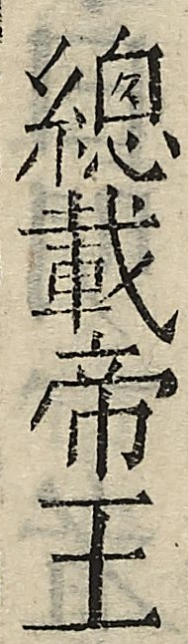總載帝王
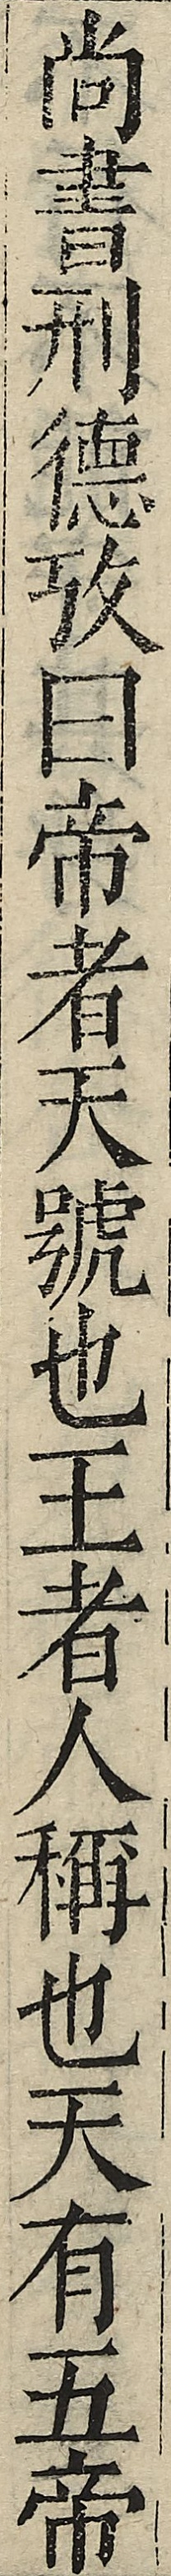尚書刑德放曰帝者天號也王者人稱也天有五帝
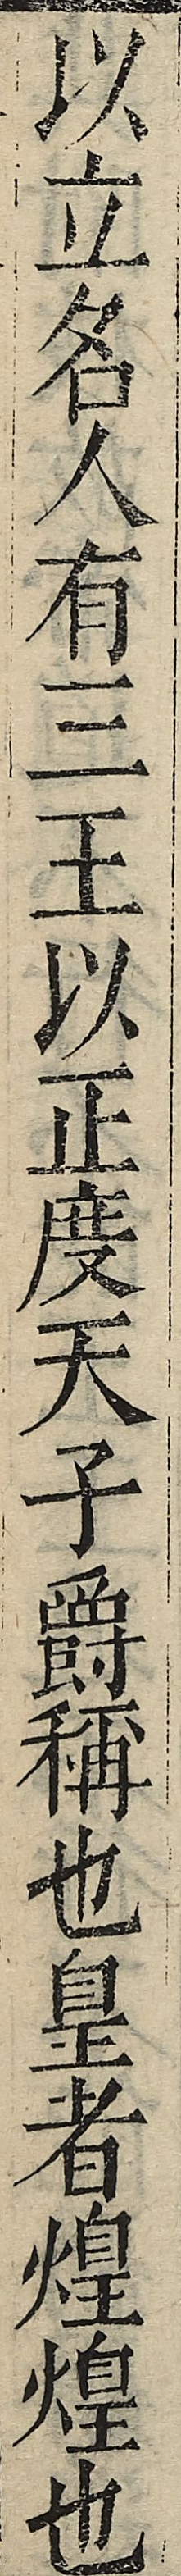以立名人有三王以正度天子爵稱也皇者煌煌也
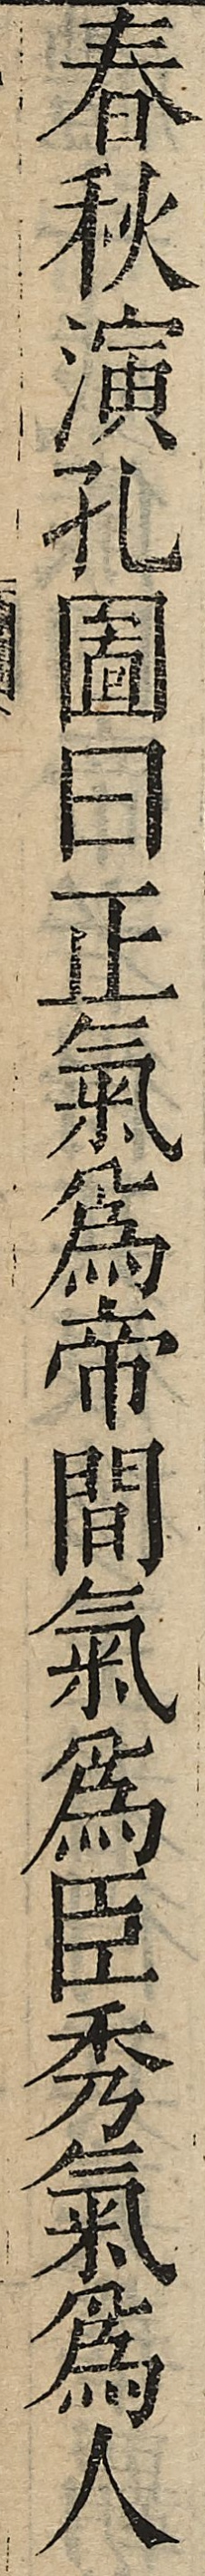春秋演孔圖曰正氣為帝閒氣為臣秀氣為人
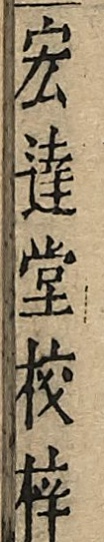宏達堂校梓
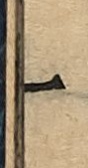一
